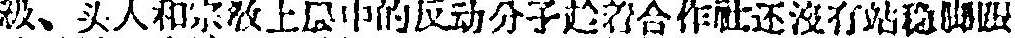級、头人和宗敎上层中的反动分子趁着合作社还沒有站稳脚跟
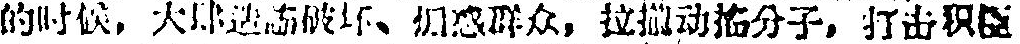的时候，大肆造成破坏、煽惑群众，拉攏动摇分子，打击积極
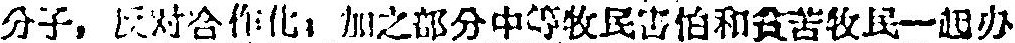分子，反对合作化；加之部分中等牧民害怕和貧苦牧民一起办
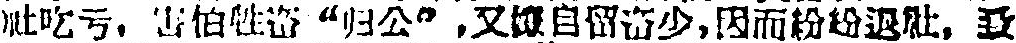社吃亏，害怕牲畜“归公”，又嫌自留畜少，因而紛紛退社，致
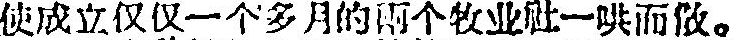使成立仅仅一个多月的两个牧业社一哄而散。
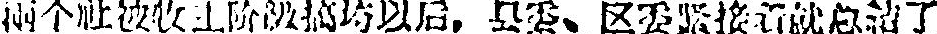两个社被牧主阶級搞垮以后，县委、区委紧接着就总結了
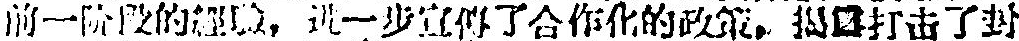前一阶段的經驗，进一步宣傳了合作化的政策。揭露打击了封
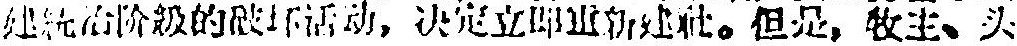建统治阶級的破坏活动，決定立即重新建社。但是，牧主、头
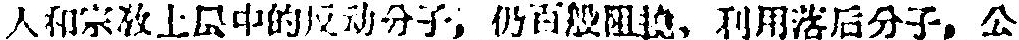人和宗敎上层中的反动分子，仍百般阻撓，利用落后分子，公
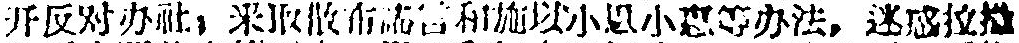开反对办社；采取散布流言和施以小恩小惠等办法，迷惑拉攏
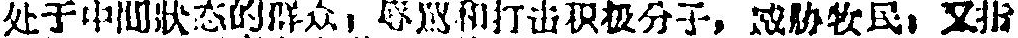处于中間状态的群众，辱罵和打击积极分子，威胁牧民，又指
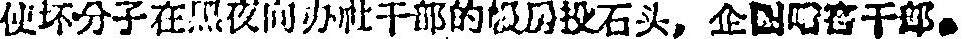使坏分子在黑夜向办社干部的帳房投石头，企图戕害干部。
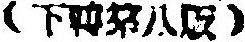（下轉第八版）
